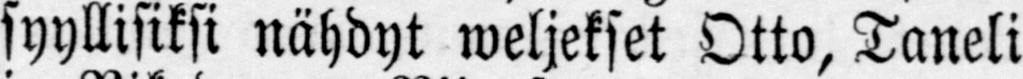syyllisiksi nähdyt weljekset Otto, Taneli
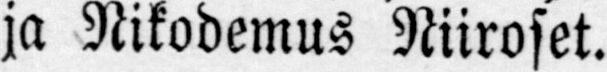ja Nikodemus Niiroset.
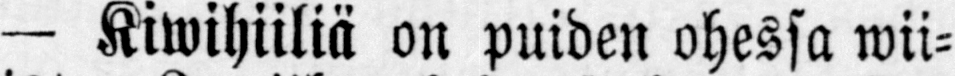— Kiwihiiliä on puiden ohessa wii-
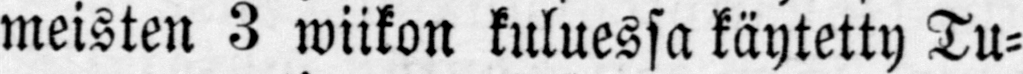meisten 3 wiikon kuluessa käytetty Tu-
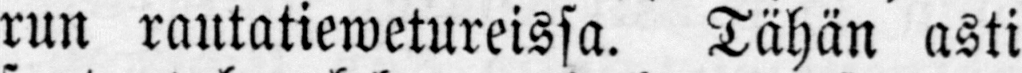run rantatiewetureissa. Tähän asti
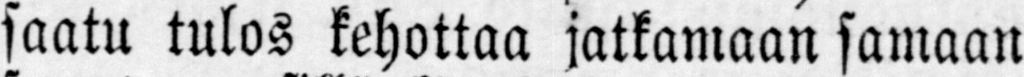saatu tulos kehottaa jatkamaan samaan
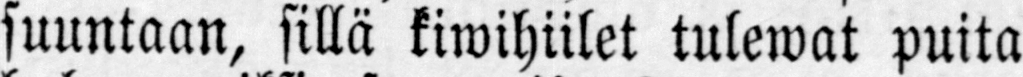suuntaan, sillä kiwihiilet tulewat puita
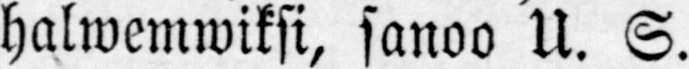halwemwiksi, sanoo U. S.
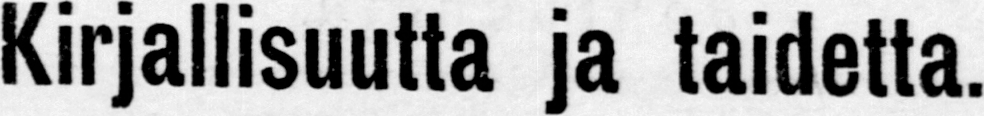kirjallisuutta ja taidetta.
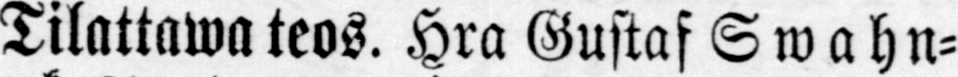Tilattawa teos. Hra Gustaf Swahn-
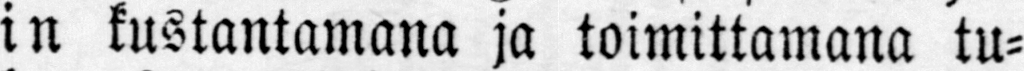in kustantamana ja toimittamana tu-
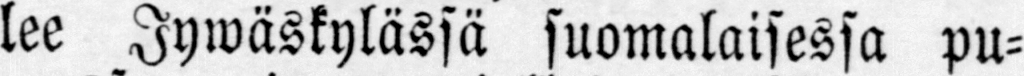lee Jywäskylässä suomalaisessa pu-
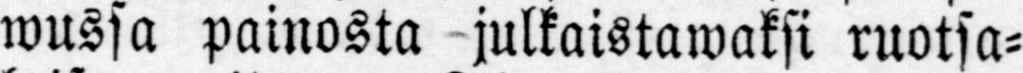wussa painosta julkaistawaksi ruotsa-
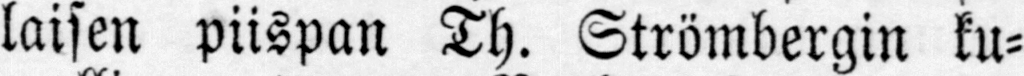laisen piispan Th. Strömbergin ku-
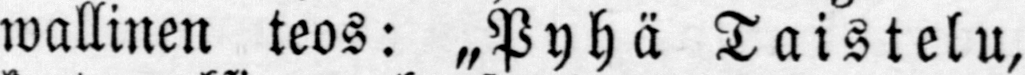wallinen teos: „Pyhä Taistelu,
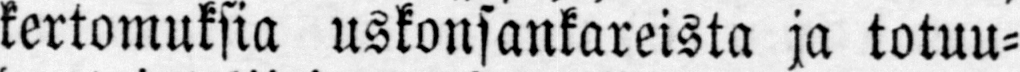kertomuksia uskonsankareista ja totuu-
